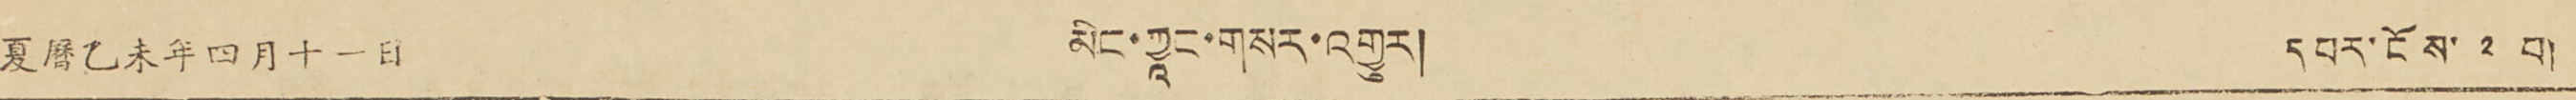夏曆乙未年四月十一日 མིང་ཀྱཱང་གསར་འགྱུར། དཔར་ངོས་ ༢ བ།
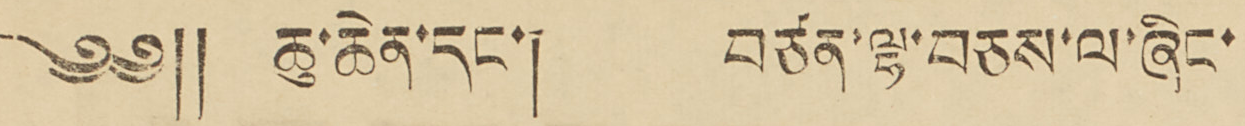༄༅༎ ཆུ་ཆེན་དང་། བཙན་ལྷ་བཅས་ལ་ཞིང་
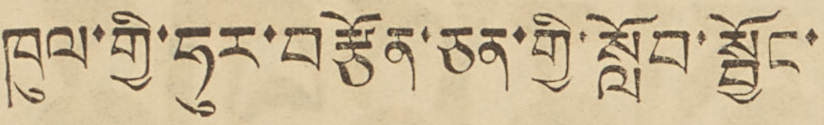ཁུལ་གྱི་ཧུར་བརྩོན་ཅན་གྱི་སློབ་སྦྱོང་
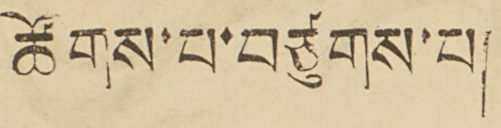ཚོགས་པ་བཙུགས་པ།
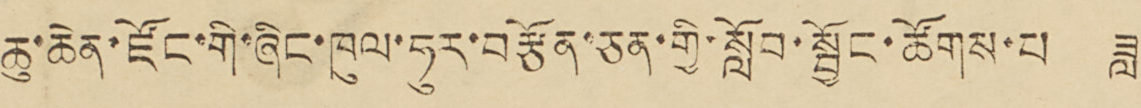ཆུ་ཆེན་ཛོང་གི་ཞིང་ཁུལ་ཧུར་བརྩོན་ཅན་གྱི་སློབ་སྦྱོང་ཚོགས་པ ཟླ
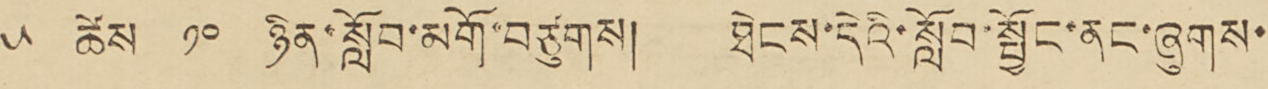༥ ཚེས ༡༠ ཉིན་སློབ་མགོ་བཙུགས། ཐེངས་དེའི་སློབ་སྦྱོང་ནང་ཞུགས་
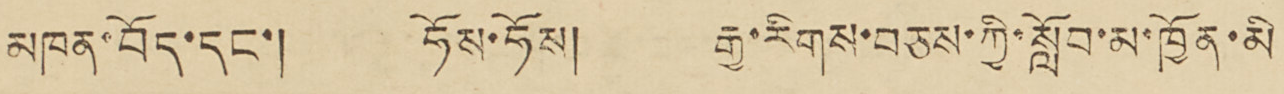མཁན་བོད་དང་། ཧོས་ཧོས། རྒྱ་རིགས་བཅས་ཀྱི་སློབ་མ་ཁྱོན་མི
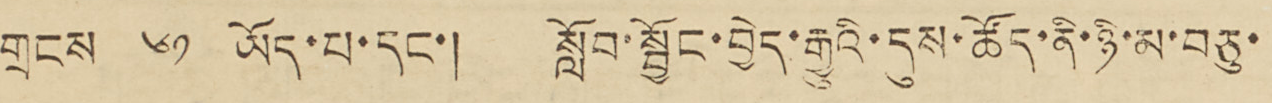གྲངས ༦༡ ཡོད་པ་དང་། སློབ་སྦྱོང་བྱེད་རྒྱུའི་དུས་ཚོད་ནི་ཉི་མ་བཅུ་
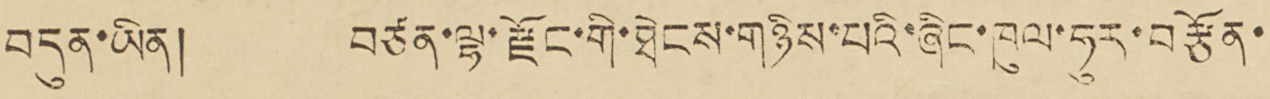བདུན་ཡིན། བཙན་ལྷ་རྫོང་གི་ཐེངས་གཉིས་པའི་ཞིང་ཁུལ་ཧུར་བརྩོན་
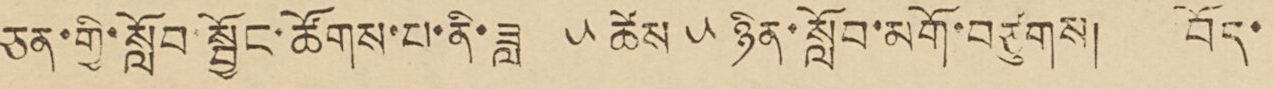ཅན་གྱི་སློབ་སྦྱོང་ཚོགས་པ་ནི་ཟླ ༥ ཚེས ༥ ཉིན་སློབ་མགོ་བཙུགས། བོད་
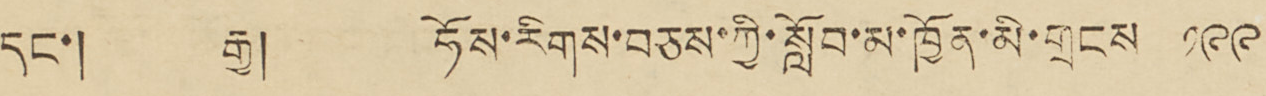དང་། རྒྱ། ཧོས་རིགས་བཅས་ཀྱི་སློབ་མ་ཁྱོན་མི་གྲངས ༡༩༩
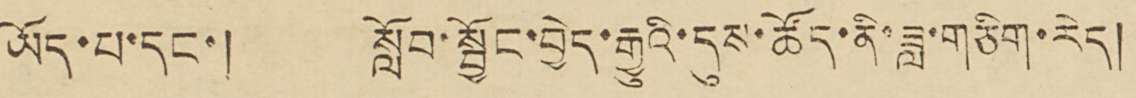ཡོད་པ་དང་། སློབ་སྦྱོང་བྱེད་རྒྱུའི་དུས་ཚོད་ནི་ཟླ་གཅིག་རེད།
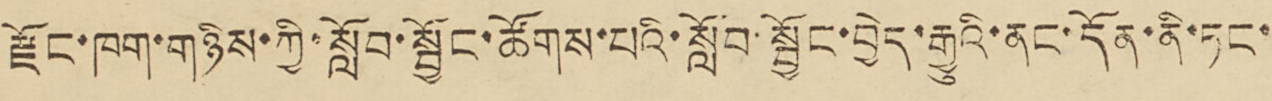རྫོང་ཁག་གཉིས་ཀྱི་སློབ་སྦྱོང་ཚོགས་པའི་སློབ་སྦྱོང་བྱེད་རྒྱུའི་ནང་དོན་ནི་ཏང་
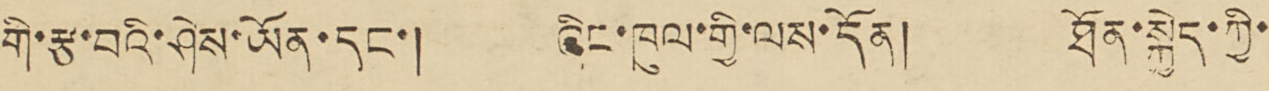གི་རྩ་བའི་ཤེས་ཡོན་དང་། ཞིང་ཁུལ་གྱི་ལས་དོན། ཐོན་སྐྱེད་ཀྱི་
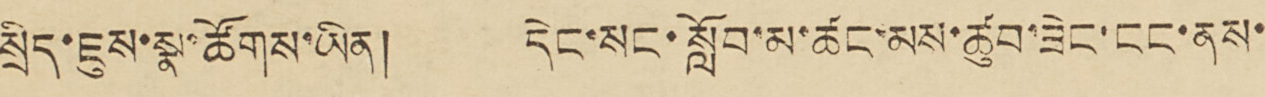སྲིད་ཇུས་སྣ་ཚོགས་ཡིན། དེང་སང་སློབ་མ་ཚང་མས་ཚུབ་ཟེང་ངང་ནས་
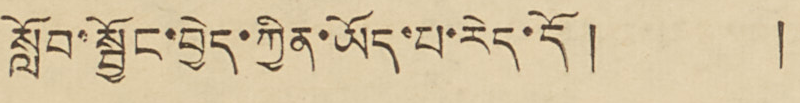སློབ་སྦྱོང་བྱེད་ཀྱིན་ཡོད་པ་རེད་དོ། །
